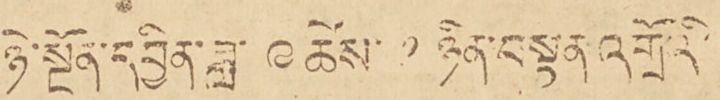ཉེ་སྔོན་དབྱིན་ཟླ་ ༩ ཚེས་ ༡ ཉིན་བསྟན འགྲོའི་
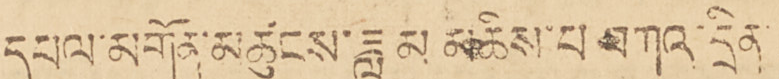དཔལ་མགོན་མཚུངས་ཟླ མ་མཆིས་པ བཀའ་དྲིན་
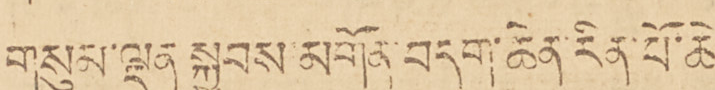གསུམ་ལྡན་སྐྱབས་མགོན་བདག་ཆེན་རིན་པོ་ཆེ་
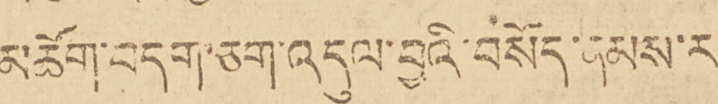མཆོག་བདག་ཅག་འདུལ་བྱའི་བསོད་ནམས་ར་
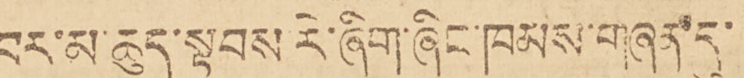བར་མ་ཆུད་སྟབས་རེ་ཞིག་ཞིང་ཁམས་གཞན་དུ་
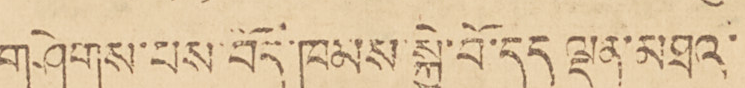གཤེགས་པས་བོད་ཁམས་སྐྱེ་བོ་དད ལྡན་མཐའ་
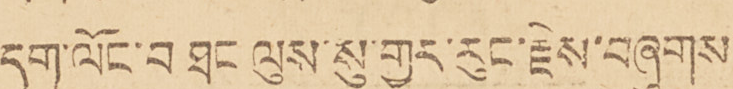དག་ལོང་མཐང ལུས་སུ་གྱུར་རུང་རྗེས་བཞུགས་
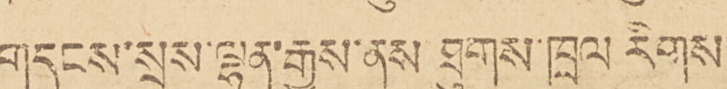གདུངས་སྲས་ལྷན་རྒྱས་ནས ཐུགས་ཁྲལ རིགས་
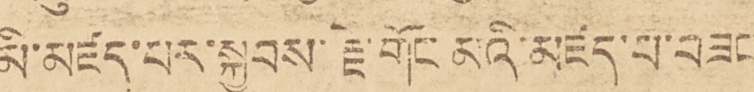མི་མཛད་པར་སྐྱབས་རྗེ་གོང་མའི་མཛད་པ་བཟང་
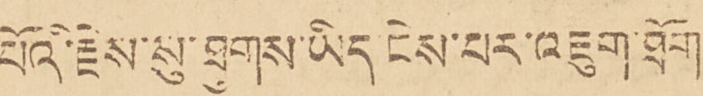པོའི་རྗེས་སུ་ཐུགས་ཡིན་ངེས་པར་འཇུག་ཐོག་
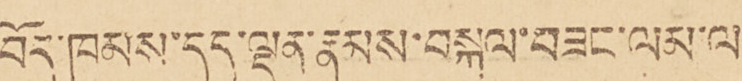བོད་ཁམས་དད་ལྡན་རྣམས་བསྐལ་བཟང་ལམ་ལ་
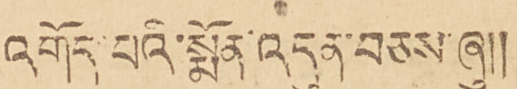འགོད་པའི་སྨོན་འདུན་བཅས་ཞུ།།
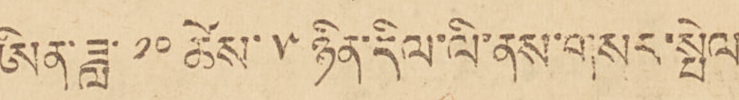ཨིན་ཟླ་ ༡༠ ཚེས་ ༥ ཉིན་དིལ་ལི་ནས་གསར་སྤེལ་
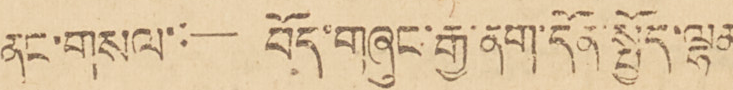ནང་གསལ་:— བོད་གཞུང་རྒྱ་ནང་དོན་སྤྱོད་ལྷན་
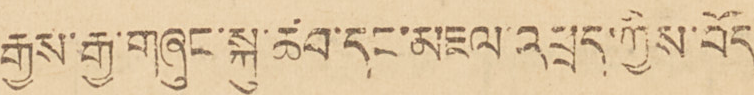རྒྱས་རྒྱ་གཞུང་སྐུ་ཚབ་དང་མཇལ་འཕྲད་ཀྱིས་བོད་
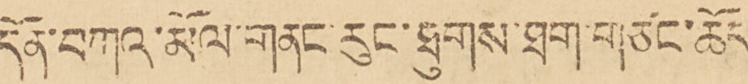དོན་བཀའ་མོལ་གནང་རུང་ཐུགས་ཐག་གཙང་ཆོད་
